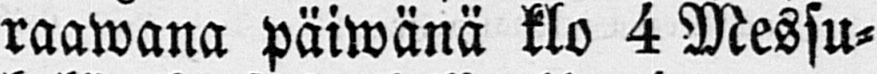raawana päiwänä klo 4 Messu-
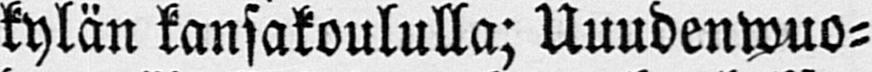kylän kansakoululla; Uuudenwuo-
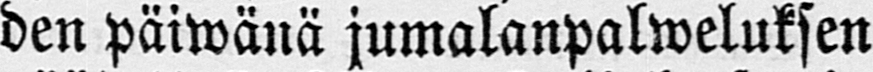den päiwänä jumalanpalweluksen
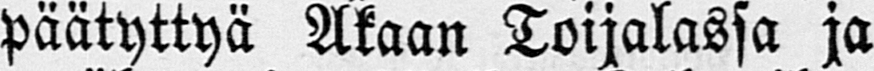päätyttyä Akaan Toijalassa ja
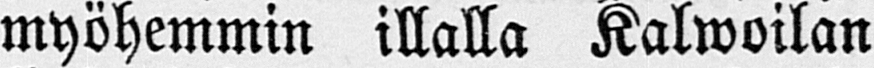myöhemmin illalla Kalwoilan
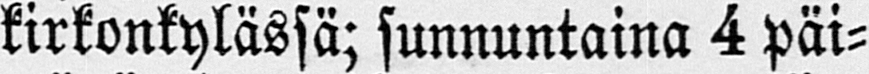kirkonkylässä; sunnuntaina 4 päi-
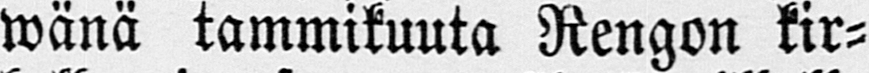wänä tammikuuta Rengon kir-
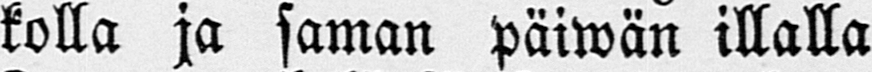kolla ja saman päiwän illalla
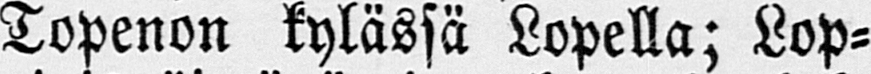Topenon kylässä Lopella; Lop-
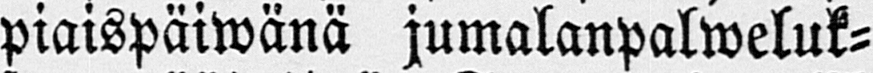piaispäiwänä jumalanpalweluk-
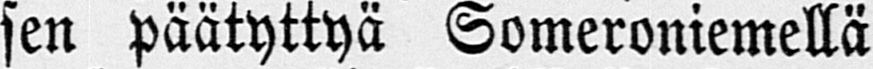sen päätyttyä Someroniemellä
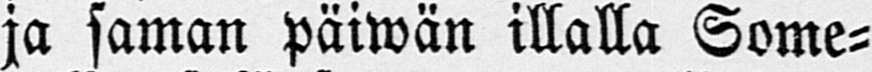ja saman päiwän illalla Some-
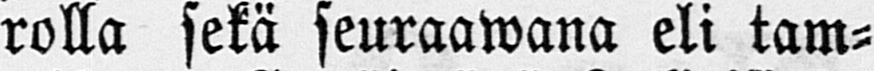rolla sekä seuraawana eli tam-
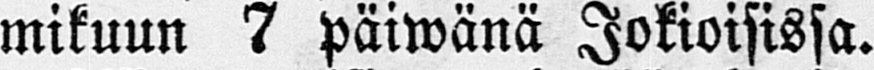mikuun 7 päiwänä Jokioisissa.
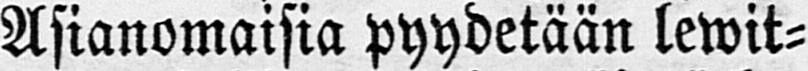Asianomaisia pyydetään lewit-
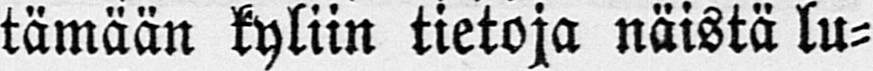tämään kyliin tietoja näistä lu-
